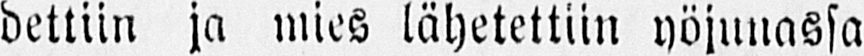dettiin ja mies lähetettiin yöjunassa
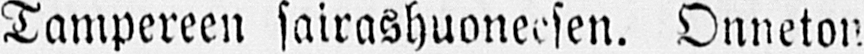Tampereen sairashuoneesen. Onneton
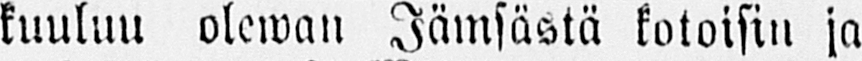kuuluu olewan Jämsästä kotoisin ja
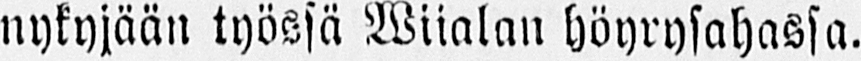nykyjään työssä Wiialan höyrysahassa.
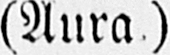(Aura.)
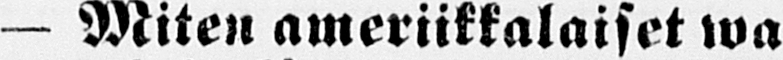— Miten ameriikkalaiset wa-
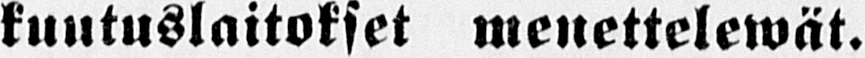kuutuslaitokset menettelewät.
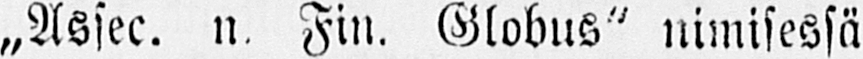„Assec. n. Fin. Globus" nimisessä
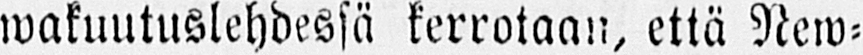wakuutuslehdessä kerrotaan, että New-
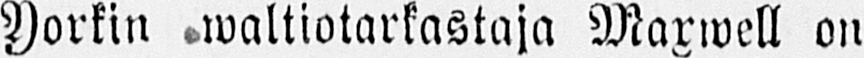Yorkin waltiotarkastaja Maxwell on
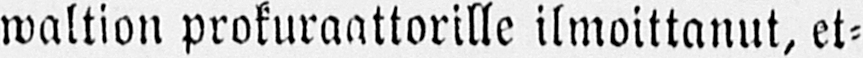waltion prokuraattorille ilmoittanut, et-
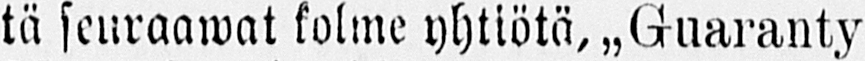tä seuraawat kolme yhtiötä, „Guaranty
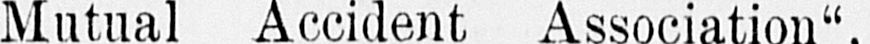Mutual Accident Association"
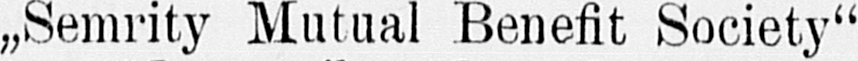„Semrity Mutual Benefit Society"
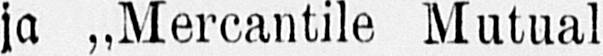ja „Mercantile Mutual Accident
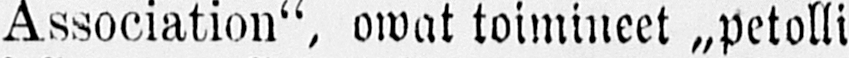Association", owat toimineet „petolli-
